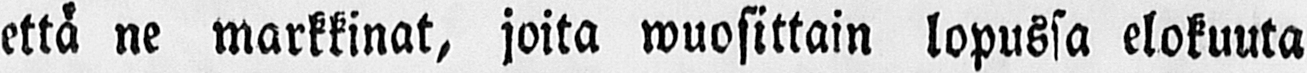että ne markkinat, joita wuosittain lopussa elokuuta
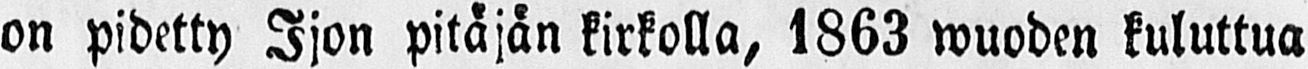on pidetty Ijon pitäjän kirkolla, 1863 wuoden kuluttua
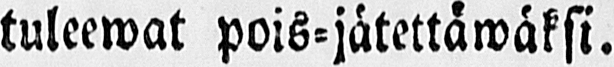tuleewat pois-jätettäwäksi.
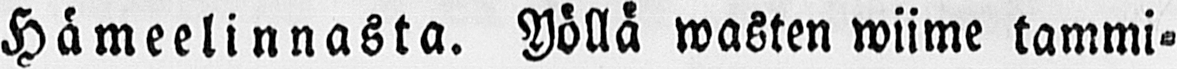Hämeelinnasta. Yöllä wasten wiime tammi-
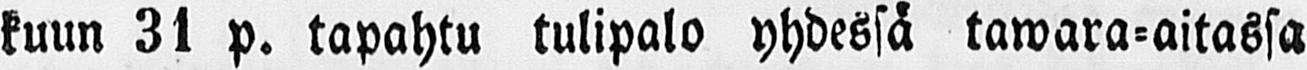kuun 31 p. tapahtu tulipalo yhdessä tawara-aitassa
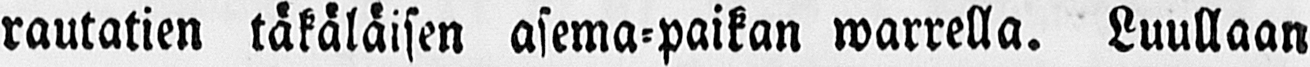rautatien täkäläisen asema-paikan warrella. Luullaan
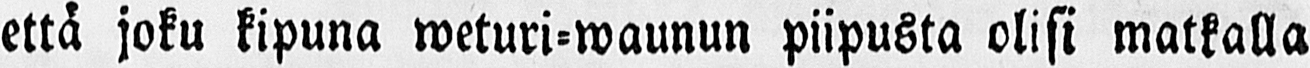että joku kipuna weturi-waunun piipusta olisi matkalla
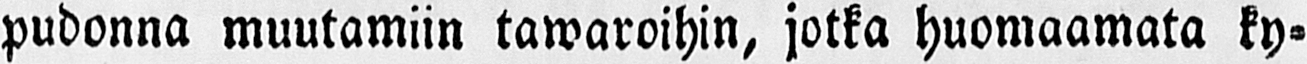pudonna muutamiin tawaroihin, jotka huomaamata ky-
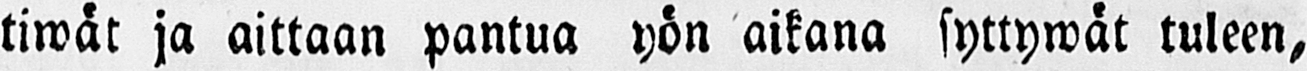tiwät ja aittaan pantua yön aikana syttywät tuleen,
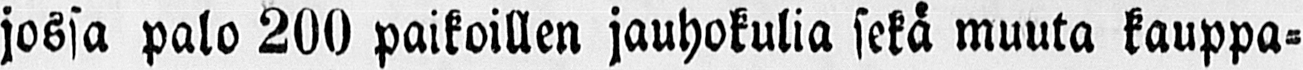jossa palo 200 paikoillen jauhokulia sekä muuta kauppa-
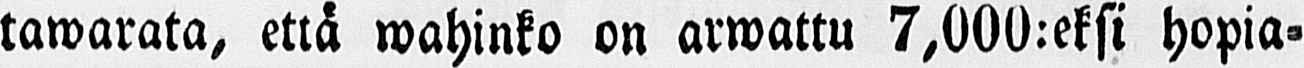tawarata, että wahinko on arwattu 7,000:eksi hopia-
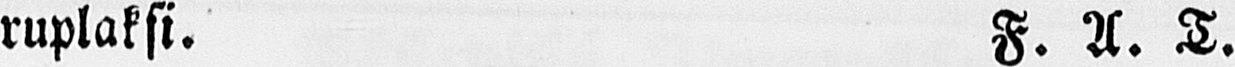ruplaksi. F. A. T.
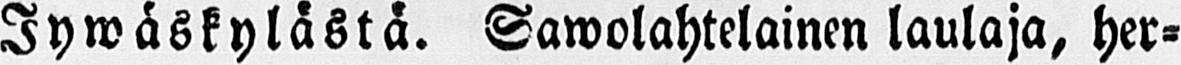Jywäskylästä. Sawolahtelainen laulaja, her-
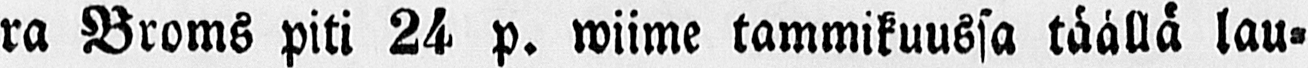ra Broms piti 24 p. wiime tammikuussa täällä lau-
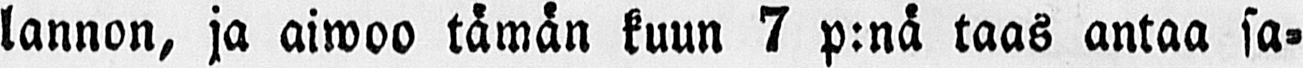lannan, ja aiwoo tämän kuun 7 p:nä taas antaa sa-
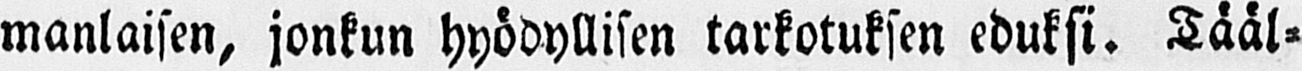manlaisen, jonkun hyödyllisen tarkotuksen eduksi. Tääl-
